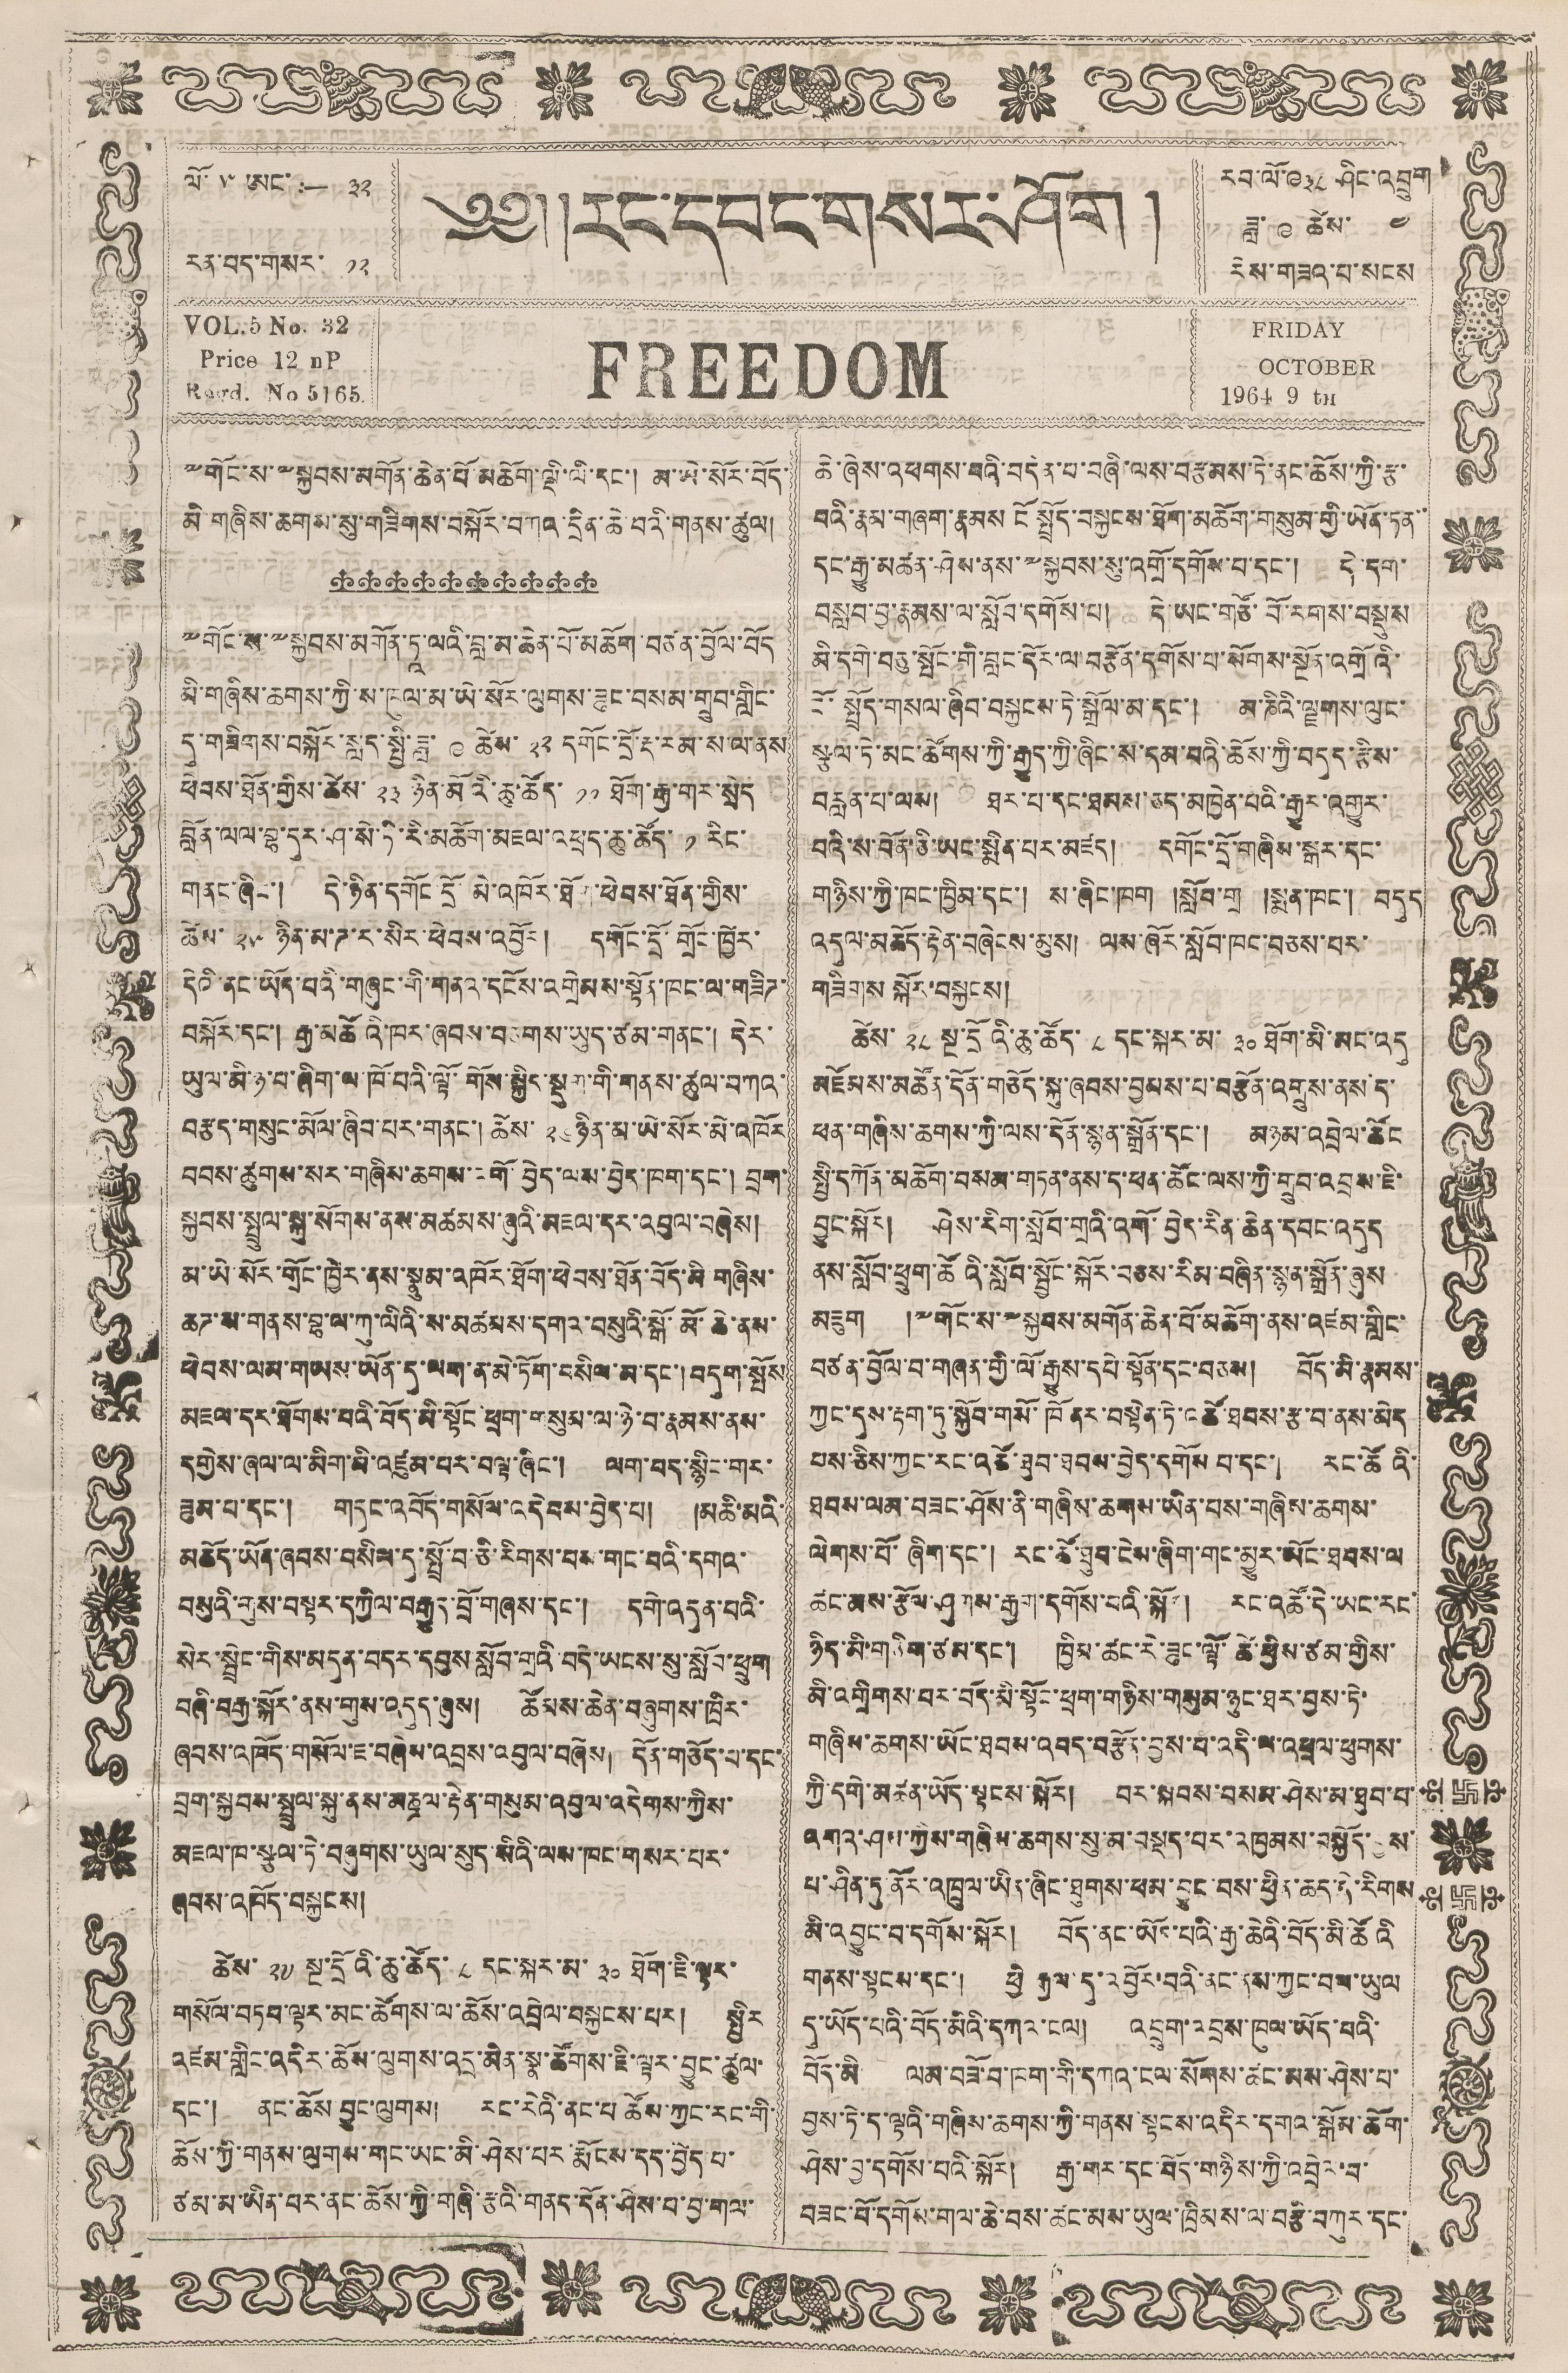༄༅།།རང་དབང་གསར་ཤོག །
FREEDOM
ལོ་ ༥ ཨང་ :— ༣༢
རན་བད་གསར་ ༡༢
རབ་ལོ་༩༣༨ ཤིང་འབྲུག
ཟླ་ ༩ ཚེས་ ༤
རེས་གཟའ་པ་སངས་
VOL. 5 No. 32
Price 12 nP
Road No 5165
FRIDAY
OCTOBER
1964 9 th
༸གོང་ས་༸སྐྱབས་མགོན་ཆེན་པོ་མཆོག་ལྡི་ལི་དང་། མ་ཡེ་སོར་བོད་
མི་གཞིས་ཆགས་སུ་གཟིགས་བསྐོར་བཀའ་དྲིན་ཆེ་བའི་གནས་ཚུལ།
༸གོང་ས་༸སྐྱབས་མགོན་ཏཱ་ལའི་བླ་མ་ཆེན་པོ་མཆོག་བཙན་བྱོན་བོད
མི་གཞིས་ཆགས་ཀྱི་ས་ཁུལ་མ་ཡེ་སོར་ལུགས་ཟུང་བསམ་གྲུབ་གླིང་
དུ་གཟིགས་བསྐོར་སླད་སྤྱི་ཟླ་ ༩ ཚེས་ ༢༢ དགོང་དྲོ་རྡ་རམ་ས་ལ་ནས
ཕེབས་ཐོན་གྱིས་ཚེས་ ༢༣ ཉིན་མོའི་ཆུ་ཚོད་ ༡༡ ཐོག་རྒྱ་གར་སྲིད
བློན་ལལ་བྷ་དུར་ཤ་སེ་ཏི་རི་མཆོག་མཇལ་འཕྲད་ཆུ་ཚོད་ ༡ རིང་
གནང་ཞིང་། དེ་ཉིན་དགོང་དྲོ་མེ་འཁོར་ཐོག་ཕེབས་ཐོན་གྱིས་
ཚེས་ ༢༥ ཉིན་མ་ཌ་ར་སིར་ཕེབས་འབྱོར། དགོང་དྲོ་གྲོང་ཁྱེར་
དེའི་ནང་ཡོད་པའི་གཞུང་གི་གནའ་དངོས་འགྲེམས་སྟོན་ཁང་ལ་གཟིཊ་
བསྐོར་དང་། རྒྱ་མཚོའི་ཁར་ཞབས་བཅགས་ཡུད་ཙམ་གནང་། དེར་
ཡུལ་མི་ཉ་པ་ཞིག་ལ་ཁོ་བའི་ལྷོ་གོས་སྐྱིད་སྡུག་གི་གནས་ཚུལ་བཀའ་
བརྩད་གསུང་མོལ་ཞིབ་པར་གནང་། ཚེས་ ༢༦ ཉིན་མ་ཡེ་སོར་མེ་འཁོར
བབས་ཚུགས་སར་གཞིས་ཆགས་འགོ་བྱེད་ལས་བྱེད་ཁག་དང་། བྲག་
སྐྱབས་སྤྲུན་སྐུ་སོགས་ནས་མཚམས་ཞུའི་མཇའ་དར་འབུལ་བཞེས།
མ་ཡེ་སོར་གྲོང་ཁྱེར་ནས་སྣུམ་འཁོར་ཐོག་ཕེབས་ཐོན་བོད་མི་གཞིས་
ཆཊ་ས་གནས་བྷ་ལ་ཀུ་ལའི་ས་མཚམས་དགའ་བསུའི་སྒོ་མོ་ཆེ་ནས་
ཕེབས་ལམ་གཡས་ཡོན་དུ་ལག་ན་མེ་ཏོག་བསིལ་མ་དང་། བདུག་སྤོས
མཇལ་དར་ཐོག་པའི་བོད་མི་སྟོང་ཕྲག་གསུམ་ལ་ཉེ་བ་རྣམས་ནས་
དགྱེས་ཞལ་ལ་མིག་མི་འཛུམ་པར་བལྟ་ཞིང་། ལག་བད་སྙིང་གར་
ཟུམ་པ་དང་། གདུང་འབོད་གསོལ་འདེབས་བྱེད་བ། །མཆི་མའི་
མཆོད་ཡོན་ཞབས་བསིལ་དུ་སྤྲོ་བ་ཅི་རིགས་བམ་གང་བའི་དགའ་
བསུའི་གུས་བསྟར་དཀྱིལ་བརྒྱུད་བྲོ་གཞས་དང་། དགེ་འདུན་པའི་
སེར་སྦྲིང་གིས་མདུན་བདར་དབུས་སློབ་གྲའི་བདེ་ཡོངས་སུ་སློབ་ཕྲུག
བཞི་བརྒྱ་སྐོར་ནས་གུས་འདུད་ཞུས། ཚོམས་ཆེན་བཞུགས་ཁྲིར་
ཞབས་འཁོད་གསོལ་ཇ་བཞེས་འབྲས་འབུལ་བཞེས། དོན་གཅོད་པ་དང་
བྲག་སྐྱབས་སྤྲུན་སྐུ་ནས་མཎྜལ་རྟེན་གསུམ་འབྱར་འདེབས་ཀྱིས་
འཇལ་ཁ་སྩལ་ཏེ་བཞུགས་ཡུལ་སུད་སིའི་ལས་ཁང་གསར་པར་
ཞབས་འཁོད་བསྐྱབས།
ཚེས་ ༢༧ སྔ་དྲོའི་ཆུ་ཚོད་ ༨ དང་སྐར་མ་ ༣༠ ཐོག་ཇི་ལྟར་
གསོལ་བཏབ་ལྟར་མང་ཚོགས་ལ་ཆོས་འབྲེལ་བསྐྱངས་པར། སྤྱིར
འཛམ་གླིང་འདིར་ཆོས་ལུགས་འདྲ་མིན་སྣ་ཚོགས་ཇི་ལྟར་བྱུང་ཚུལ་
དང་། ནང་ཆོས བྱུང་ལུགས། རང་རེའི་ནང་པ་ཆོས་ཀྱང་རང་གི་
ཆོས་ཀྱི་གནས་ལུགས་གང་ཡང་མི་ཤེས་པར་རྨོངས་དད་བྱེད་པ་
ཙམ་མ་ཡིན་པར་ནང་ཆོས་ཀྱི་གཞི་རྩའི་གནད་དོན་ཤེས་བ་བྱ་གལ་
ཆེ་ཞེས་འཕགས་པའི་བདེན་པ་བཞི་ལས་བརྩམས་ཏེ་ནང་ཆོས་ཀྱི་རྩ་
པའི་རྣམ་གཞག་རྣམས ངོ སྤྲོད་བསྐྱངས་ཐོག་མཆོག་གསུམ་གྱི་ཡོན་ཏན་
དང་རྒྱུ་མཚན་ཤེས་ནས་༸སྐྱབས་སུ་འགྲོ་དགོས་པ་དང་། དེ་དག་
བསླབ་བྱ་རྣམས་ལ་སློབ་དགོས་པ། དེ་ཡང་གཙོ་བོ་རགས་བསྡུས་
མི་དགེ་བཅུ་སྤོང་གི་བླང་དོར་ལ་བརྩོན་དགོས་པ་སོགས་སྔོན་འགྲོའི་
ངོ་སྤྲོད་གསལ་ཞིབ་བསྐྱབས་ཏེ་སྒྲོལ་མ་དང་། མ་ཎིའི་ལྗགས་ལུང་
སྩལ་ཏེ་མང་ཚོགས་ཀྱི་རྒྱུད་ཀྱི་ཞིང་ས་དམ་པའི་ཆོས་ཀྱི་བདུད་རྩིས་
བརླན་པ་ལས། ཐར་པ་དང་ཐམས་ཅད་མཁྱེན་པའི་རྒྱུར་འགྱུར་
བའི་ས་བོན་ཅི་ཡང་སྨོན་པར་མཛད། དགོང་དྲོ་གཞིས་སྒར་དང་
གཉིས་ཀྱི་ཁང་ཁྱིམ་དང་། ས་ཞིང་ཁག །སློབ་གྲ །སྨན་ཁང་། བདུད
འདུལ་མཆོད་རྟེན་བཞེངས་མུས། ལས་ཞོར་སློབ་ཁང་བཅས་བར་
གཟིགས སྐོར་བསྐྱངས།
ཚེས་ ༢༨ སྔ་དྲོའི་ཆུ་ཚོད་ ༨ དང་སྐར་མ་ ༣༠ ཐོག་མི་མང་འདུ
འཛོམས་མཚོན་དོན་གཅོད་སྐུ་ཞབས་བྱམས་པ་བཙོན་འགྲུས་ནས་ད་
ཕན་གཞིས་ཆགས་ཀྱི་ལས་དོན་སྙན་སྒྲོན་དང་། མཉམ་འབྲེལ་ཚོང
སྤྱི་དཀོན་མཆོག་བསམ་གཏན་ནས་ད་ཕན་ཚོང་ལས་ཀྱི་གྲུབ་འབྲས་ཇི་
བྱུང་སྐོར། ཤེས་རིག་སློབ་གྲའི་འོག་བྱེད་རིན་ཆེན་དབང་འདུད
ནས་སློབ་ཕྲུག་ཚོའི་སློབ་སྦྱོང་སྐོར་བཅས་རིམ་བཞིན་སྙན་སྒྲོན་ཞུས
མཇུག །༸གོང་ས་༸སྐྱབས་མགོན་ཆེན་པོ་མཆོག་ནས་འཛམ་གླིང་
བཙན་བྱོལ་བ་གཞན་གྱི་ལོ་རྒྱུས་དཔེ་སྟོན་དང་བཅས། བོད་མི་རྣམས་
ཀྱང་དུས་རྟག་ཏུ་སྐྱོབ་གསོ་ཁོ ནར་བསྟེག་ཏེ་འཚོ་ཐབས་རྩ་བ་ནས་མེད
པས་ཅིས་ཀྱང་རང་འཚོ་ཐུབ་ཐབས་བྱེད་དགོས པ་དང་། རང་ཚོའི་
ཐབས་ལམ་བཟང་ཤོས་ནི་གཞིས་ཆགས་ཡིན་པས་གཞིས་ཆགས་
ལེགས་པོ་ཞིག་དང་། རང་ཚོ་ཐུབ་ངེས་ཞིག་གང་མྱུར་མོང་ཐབས་ལ
ཚང་མས་རྩོལ་ཤུགས་རྒྱག་དགོས་པའི་སྐོར། རང་འཚོ་དེ་ཡང་རང་
ཉིད་མི་གཅིག་ཙམ་དང་། ཁྱིམ་ཚང་རེ་ཟུང་ལྟོ་ཚེ་ཕྱིས་ཙམ་གྱིས་
མི་འགྲིགས་བར་བོད་མི་སྟོང་ཕྲག་གཉིས་གསུམ་ཉུང་ཐར་བྱས་ཏེ་
གཞིས་ཆགས་ཡོང་ཐབས་འབད་བརྩོན་བྱས་པ་འདི་ལ་འཕྲལ་ཕུགས་
ཀྱི་དགེ་མཚན་ཡོད་སྟངས་སྐོར། བར་སྐབས་བསམ་ཤེས་མ་ཐུབ་པ་
འགའ་ཤས་ཀྱིས་གཞིས་ཆགས་སུ་མ་བསྡད་པར་འཁྱམས་བསྐྱོད་བྱས་
པ་ཤིན་ཏུ་ནོར་འཁྲུལ་ཡིན་ཞིང་ཐུགས་ཕམ་བྱུང་པས་ཕྱིན་ཆད་དེ་རིགས
མི་འབྱུང་བ་དགོས་སྐོར། བོད་ནང་ཡོང་པའི་རྒྱ་ཆེའི་བོད་མི་ཚོའི
གནས་སྟངས་དང་། ཕྱི རྒྱལ་དུ་འབྱོན་བའི་ནང་ནས་ཀྱང་བལ་ཡུལ
དུ་ཡོད་པའི་བོད་མིའི་དཀའ་ངལ། འབྲུག་འབྲས་ཁུལ་ཡོད་པའི་
བོད་མི ལམ་བཟོ་བ་ཁག་གི་དཀའ་ངལ་སོགས་ཚང་མས་ཤེས་པ་
བྱས་ཏེ་ད་ལྟའི་གཞིས་ཆགས་ཀྱི་གནས་སྟངས་འདིར་དགའ་སྒོམ་ཆོག་
ཤེས་བྱ་དགོས་པའི་སྐོར། རྒྱ་གར་དང་བོད་གཉིས་ཀྱི་འབྲེལ་བ་
བཟང་པོ་དགོས་གལ་ཆེ་བས་ཚང་མས་ཡུལ་ཁྲིམས་ལ་བརྩི་བཀུར་དང་
